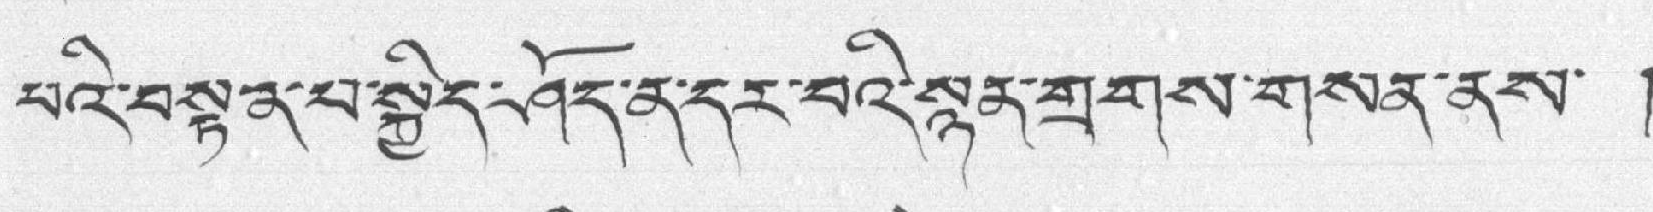པའི་བསྟན་པ་སྐྱིད་ཤོད་ན་དར་བའི་སྙན་གྲགས་གསན་ནས་ །
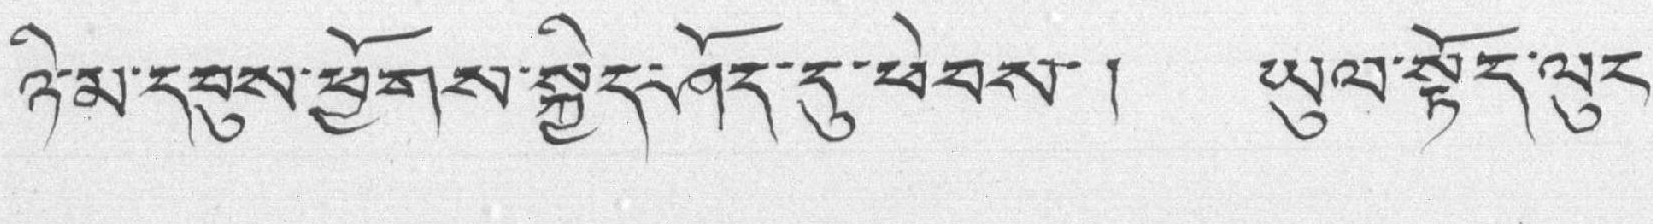ཉི་མ་དབུས་ཕྱོགས་སྐྱིད་ཤོད་དུ་ཕེབས་ ། ཡུལ་སྟོད་ལུང་
